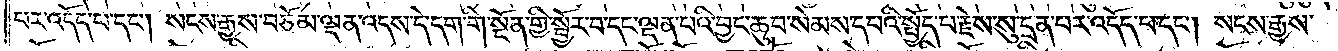པར་འདོད་པ་དང༌། སངས་རྒྱས་བཅོམ་ལྡན་འདས་དེ་དག་གི་སྔོན་གྱི་སྦྱོར་བ་དང་ལྡན་པའི་བྱང་ཆུབ་སེམས་དཔའི་སྤྱོད་པ་རྗེས་སུ་དྲན་པར་འདོད་པ་དང༌། སངས་རྒྱས་
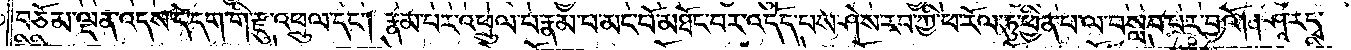བཅོམ་ལྡན་འདས་དེ་དག་གི་རྫུ་འཕྲུལ་དང༌། རྣམ་པར་འཕྲུལ་པ་རྣམ་པ་མང་པོ་མཐོང་བར་འདོད་པས་ཤེས་རབ་ཀྱི་ཕ་རོལ་ཏུ་ཕྱིན་པ་ལ་བསླབ་པར་བྱའོ། །ཤཱ་ར་དྭ་
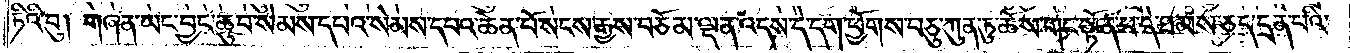ཏིའི་བུ། གཞན་ཡང་བྱང་ཆུབ་སེམས་དཔའ་སེམས་དཔའ་ཆེན་པོ་སངས་རྒྱས་བཅོམ་ལྡན་འདས་དེ་དག་ཕྱོགས་བཅུ་ཀུན་ཏུ་ཆོས་གང་སྟོན་པ་དེ་ཐམས་ཅད་དྲན་པའི་
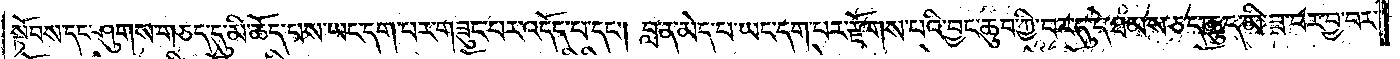སྟོབས་དང་ཤུགས་གཅད་དུ་མི་ཆོད་པས་ཡང་དག་པར་གཟུང་བར་འདོད་པ་དང༌། བླ་ན་མེད་པ་ཡང་དག་པར་རྫོགས་པའི་བྱང་ཆུབ་ཀྱི་བར་དུ་དེ་ཐམས་ཅད་ཆུད་མི་ཟ་བར་བྱ་བར་
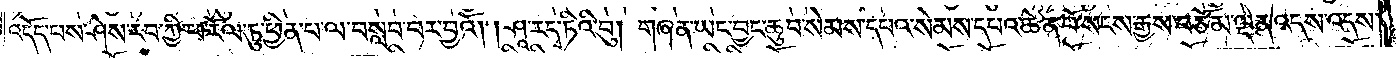འདོད་པས་ཤེས་རབ་ཀྱི་ཕ་རོལ་ཏུ་ཕྱིན་པ་ལ་བསླབ་པར་བྱའོ། །ཤཱ་ར་དྭ་ཏིའི་བུ། གཞན་ཡང་བྱང་ཆུབ་སེམས་དཔའ་སེམས་དཔའ་ཆེན་པོ་སངས་རྒྱས་བཅོམ་ལྡན་འདས་འདས་
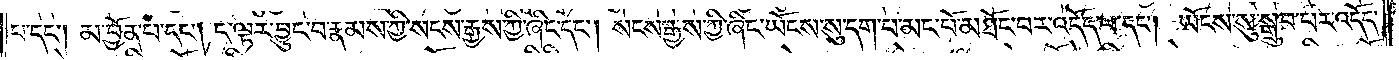པ་དང༌། མ་བྱོན་པ་དང༌། ད་ལྟར་བྱུང་བ་རྣམས་ཀྱི་སངས་རྒྱས་ཀྱི་ཞིང་དང༌། སངས་རྒྱས་ཀྱི་ཞིང་ཡོངས་སུ་དག་པ་མང་པོ་མཐོང་བར་འདོད་པ་དང༌། ཡོངས་སུ་སྒྲུབ་པར་འདོད་
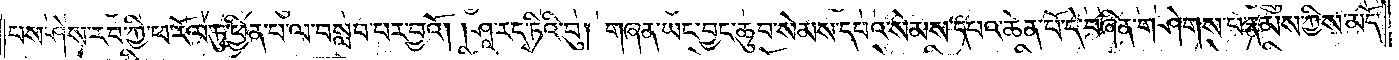པས་ཤེས་རབ་ཀྱི་ཕ་རོལ་ཏུ་ཕྱིན་པ་ལ་བསླབ་པར་བྱའོ། །ཤཱ་ར་དྭ་ཏིའི་བུ། གཞན་ཡང་བྱང་ཆུབ་སེམས་དཔའ་སེམས་དཔའ་ཆེན་པོ་དེ་བཞིན་གཤེགས་པ་རྣམས་ཀྱིས་མདོ་
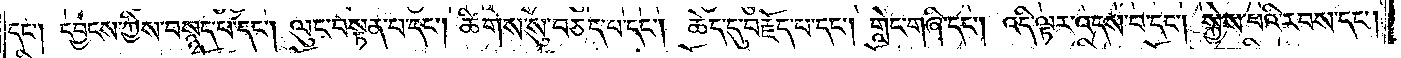དང༌། དབྱངས་ཀྱིས་བསྙད་པ་དང༌། ལུང་བསྟན་པ་དང༌། ཚིགས་སུ་བཅད་པ་དང༌། ཆེད་དུ་བརྗོད་པ་དང༌། གླེང་གཞི་དང༌། འདི་ལྟར་འདས་པ་དང༌། སྐྱེས་པའི་རབས་དང༌།
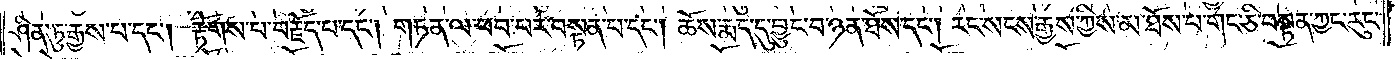ཤིན་ཏུ་རྒྱས་པ་དང༌། རྟོགས་པ་བརྗོད་པ་དང༌། གཏན་ལ་ཕབ་པར་བསྟན་པ་དང༌། ཆོས་རྨད་དུ་བྱུང་བ་ཉན་ཐོས་དང༌། རང་སངས་རྒྱས་ཀྱིས་མ་ཐོས་པ་གང་ཅི་བསྟན་ཀྱང་རུང་
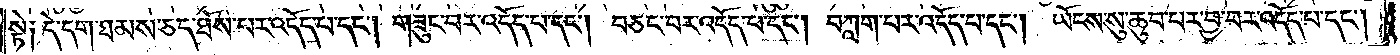སྟེ༑ དེ་དག་ཐམས་ཅད་ཐོས་པར་འདོད་པ་དང༌། གཟུང་བར་འདོད་པ་དང༌། བཅང་བར་འདོད་པ་དང༌། བཀླག་པར་འདོད་པ་དང༌། ཡོངས་སུ་ཆུབ་པར་བྱ་བར་འདོད་པ་དང༌།
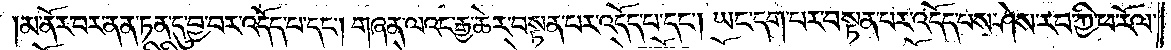མ་ནོར་བར་ནན་ཏན་དུ་བྱ་བར་འདོད་པ་དང༌། གཞན་ལའང་རྒྱ་ཆེར་བསྟན་པར་འདོད་པ་དང༌། ཡང་དག་པར་བསྟན་པར་འདོད་པས་ཤེས་རབ་ཀྱི་ཕ་རོལ་
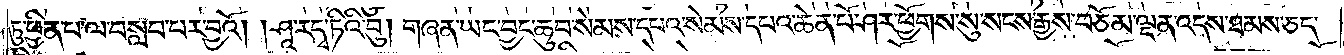ཏུ་ཕྱིན་པ་ལ་བསླབ་པར་བྱའོ། །ཤཱ་ར་དྭ་ཏིའི་བུ། གཞན་ཡང་བྱང་ཆུབ་སེམས་དཔའ་སེམས་དཔའ་ཆེན་པོ་ཤར་ཕྱོགས་སུ་སངས་རྒྱས་བཅོམ་ལྡན་འདས་ཐམས་ཅད་
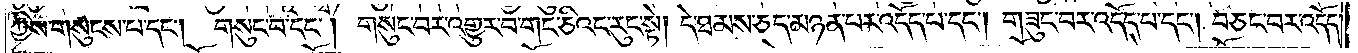ཀྱིས་གསུངས་པ་དང༌། གསུང་བ་དང༌། གསུང་བར་འགྱུར་བ་གང་ཅིའང་རུང་སྟེ། དེ་ཐམས་ཅད་མཉན་པར་འདོད་པ་དང༌། གཟུང་བར་འདོད་པ་དང༌། བཅང་བར་འདོད་
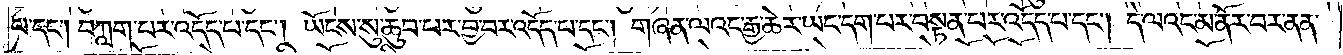པ་དང༌། བཀླག་པར་འདོད་པ་དང༌། ཡོངས་སུ་ཆུབ་པར་བྱ་བར་འདོད་པ་དང༌། གཞན་ལའང་རྒྱ་ཆེར་ཡང་དག་པར་བསྟན་པར་འདོད་པ་དང༌། དེ་ལའང་མ་ནོར་བར་ནན་
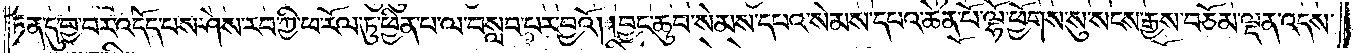ཏན་དུ་བྱ་བར་འདོད་པས་ཤེས་རབ་ཀྱི་ཕ་རོལ་ཏུ་ཕྱིན་པ་ལ་བསླབ་པར་བྱའོ། །བྱང་ཆུབ་སེམས་དཔའ་སེམས་དཔའ་ཆེན་པོ་ལྷོ་ཕྱོགས་སུ་སངས་རྒྱས་བཅོམ་ལྡན་འདས་
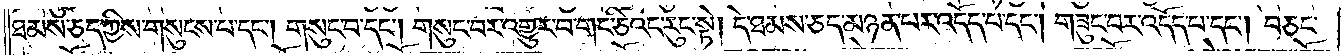ཐམས་ཅད་ཀྱིས་གསུངས་པ་དང༌། གསུང་བ་དང༌། གསུང་བར་འགྱུར་བ་གང་ཅིའང་རུང་སྟེ། དེ་ཐམས་ཅད་མཉན་པར་འདོད་པ་དང༌། གཟུང་བར་འདོད་པ་དང༌། བཅང་
